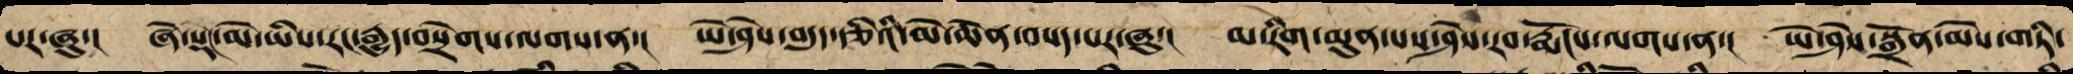པར་ཞུ་། ཞེ་སྡང་མེ་ཡིས་རང་རྒྱུད་བསྲེགས་ལགས་ན་། ཡེ་ཤེས་བདུད་རྩིའི་མེ་ཆེན་བསད་པར་ཞུ་། མ་རིག་མུན་པས་ཤེས་རབ་རྨོངས་ལགས་ན་། ཡེ་ཤེས་སྒྲོན་མས་གཏི་
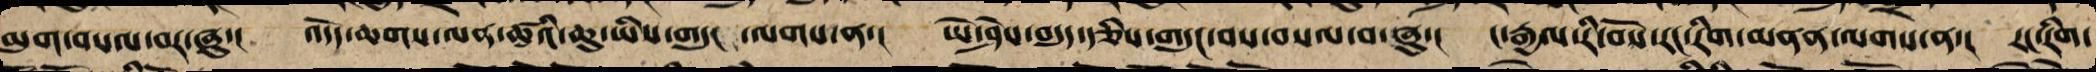མུག་བསལ་བར་ཞུ་། འདོད་ཆགས་ལན་ཚའི་ཆུ་ཡིས་གདུང་ལགས་ན་། ཡེ་ཤེས་བདུད་རྩིས་གདུང་བ་བསལ་བར་ཞུ་། ང་རྒྱལ་རི་བོས་རང་རིག་མནན་ལགས་ན་། རང་རིག་
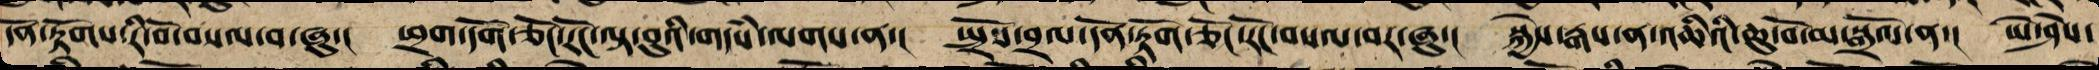དོན་རྟོགས་རི་བོ་བསལ་བར་ཞུ་། ཕྲག་དོག་ཅོང་རོང་ལྟ་བུས་གདཾས་ལགས་ན་། སྤྲོས་བྲལ་དོན་རྟོགས་ཅོང་རོང་བསལ་བར་ཞུ་། སྐྱེ་རྒ་ན་འཆིའི་ཆུ་བོ་མ་སྒྲོལ་ན་། ཡེ་ཤེས་
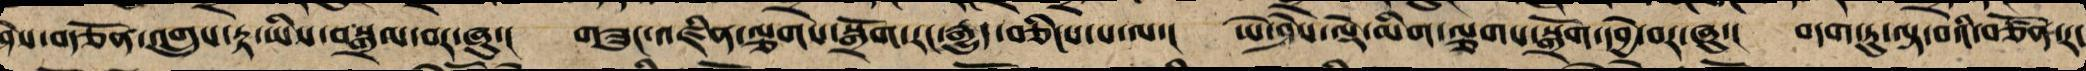ཤེས་བརྩོན་འགྲུས་རྟ་ཡིས་བསྒྲལ་བར་ཞུ་། གཟུང་འཛིན་ལྕགས་སྒྲོག་རང་རྒྱུད་བཅིངས་པ་ལ་། ཡེ་ཤེས་ལྡེ་མིག་ལྕགས་སྒྲོག་དབྱེ་བར་ཞུ་། བདག་ཏུ་ལྟ་བའི་བཙོན་ར་
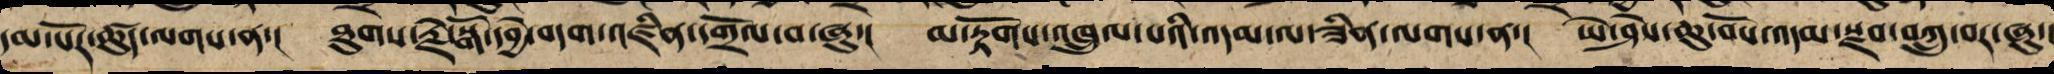དམ་པོར་ཚུད་ལགས་ན་། ཐུགས་རྗེ་སྒོ་དབྱེ་བདག་འཛིན་དགྲོལ་བ་ཞུ་། མ་རྟོགས་འཁྲུལ་པའི་འདམ་གྱིས་ཟིན་ལགས་ན་། ཡེ་ཤེས་ཆུ་བོས་འདམ་སྫབ་བཀྲུ་བར་ཞུ་།
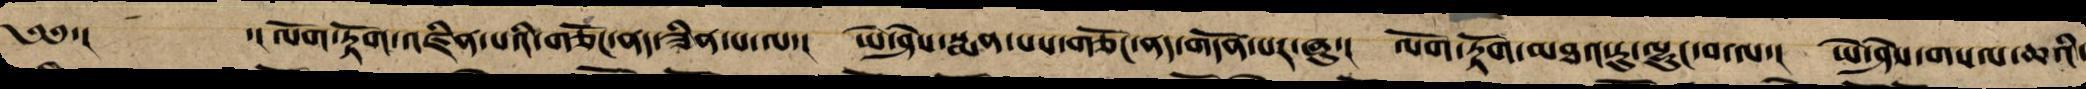༄༅་།  ་།ལོག་རྟོག་འཛིན་པའི་གཅོང་ནད་ཟིན་པ་ན་། ཡེ་ཤེས་སྨན་པས་གཅོང་ནད་གདོན་པར་ཞུ་། ལོག་རྟོག་ཆད་པའི་མཐའ་རུ་ལྷུང་བ་ལ་། ཡེ་ཤེས་གསལ་ཆའི་
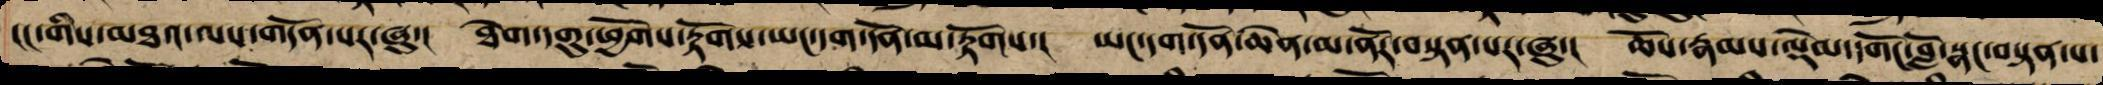ངང་གི་མཐའ་ལས་གདོན་པར་ཞུ་། ཐེག་དགུ་ཕྱོགས་རྟོགས་ཡང་དག་དོན་མ་རྟོགས་། ཡང་དག་དོན་ཆེན་མ་ནོར་བསྟན་པར་ཞུ་། ཆོས་རྣམས་ལྡེམ་དགོངས་བློ་སྣང་བསྟན་པ་
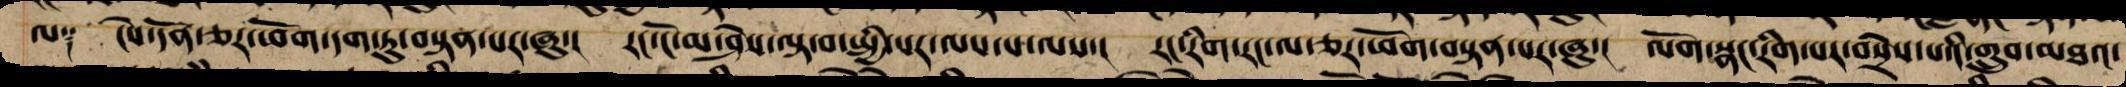ལ༑ ངེས་དོན་ཅར་ཕོག་དག་ཏུ་བསྟན་པར་ཞུ་། རང་ངོ་མ་ཤེས་ལྟ་བ་སྤྱི་སར་ལས་པ་ལས་། རང་རིག་རང་ལ་ཅར་ཕོག་བསྟན་པར་ཞུ་། ལོག་སྣང་རིག་པར་བསྲེས་པའི་གྲུབ་མཐའ་
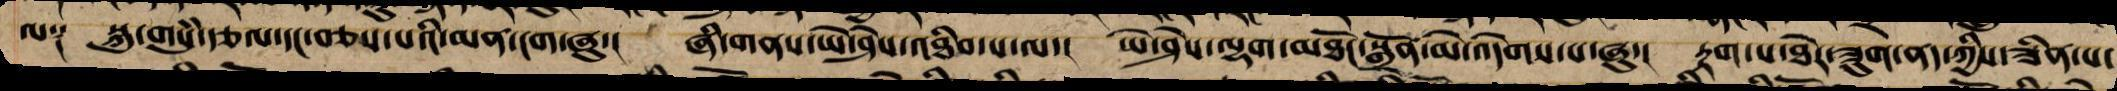ལ༑ སྐུ་གསུཾ་རྩལ་དང་བཅས་པའི་མན་ངག་ཞུ་། ཞི་གནས་མུན་པས་ཡེ་ཤེས་འཐིབས་པ་ལ་། ཡེ་ཤེས་ལྷག་མཐོང་སྒྲོན་མེ་འདེགས་པར་ཞུ་། རྟག་པ་ཐེར་ཟུག་ནད་ཀྱིས་ཟིན་པ་
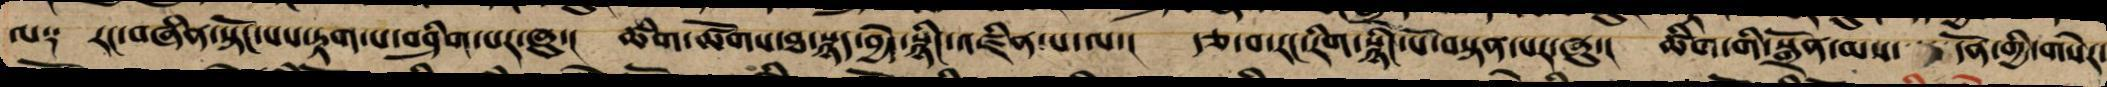ལས༑ རང་བཞིན་སྟོང་པས་རྟག་པ་བཤིག་པར་ཞུ་། ཚིག་ཚོགས་ཐ་སྙད་བྱེད་སྙིང་འཛིན་པ་ལ་། རྩ་བ་རང་རིག་སྙིང་པོ་བསྟན་པར་ཞུ་། ཚིག་གི་སྒྲོན་མས་དོན་གྱི་གསེར་
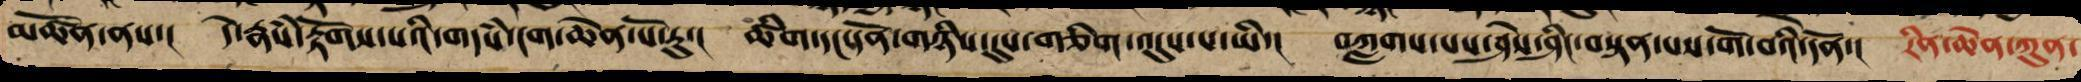མཚོན་ནས་། དེ་རྣཾས་རྟོགས་པའི་གདཾས་ངག་ཆེན་པོ་རུ་། ཚིག་དང་དོན་གཉིས་དུས་གཅིག་སྟོན་པ་ཡི་། བཀླགས་པས་ཤེས་ཤིང་བསྟན་པས་གོ་བའི་དོན་། རིན་ཆེན་ཀུན་
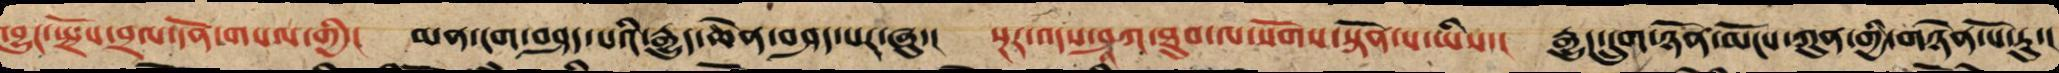འབྱུང་སྤྲོས་བྲལ་དོན་གསལ་གྱི་། མན་ངག་བཤད་པའི་རྒྱུད་ཆེན་བཤད་པར་ཞུ་། སྔར་འདས་ཤཱཀ་ཐུབ་ལ་སོགས་སྟོན་པ་ཡིས་། རྒྱུད་དྲུག་ཉོན་མོངས་ཀུན་གྱི་གཉེན་པོ་རུ་།
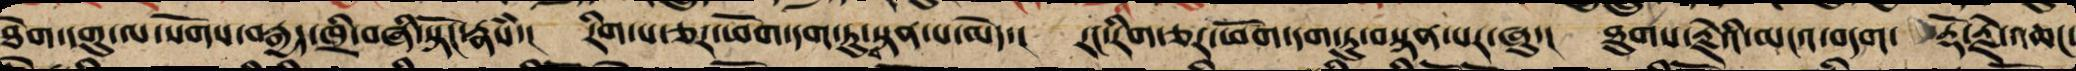ཐེག་དགུ་ལ་སོགས་བརྒྱད་ཁྲི་བཞི་སྟོང་རྣཾས་། རིག་པ་ཅར་ཕོག་དག་ཏུ་བསྟན་པ་མེད་། རང་རིག་ཅར་ཕོག་དག་ཏུ་བསྟན་པར་ཞུ་། ཐུགས་རྗེའི་མངའ་བདག་ རྡོ་རྗེ་འཆང་
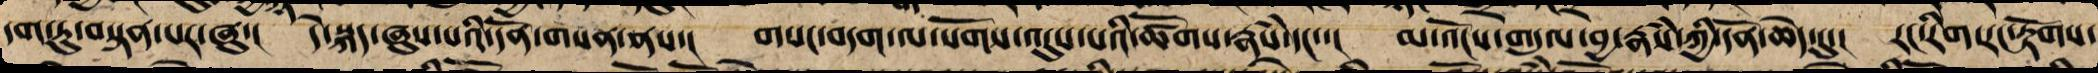དག་ཏུ་བསྟན་པར་ཞུ་། དེ་སྐད་ཞུས་པའི་དོན་གསན་ནས་། གསང་བདག་ལ་སོགས་འདུས་པའི་ཚོགས་རྣཾས་དང་་། མ་འོངས་གདུལ་བྱ་རྣཾས་ཀྱི་དོན་ཆེད་དུ་། རང་རིག་རང་རྟོགས་
